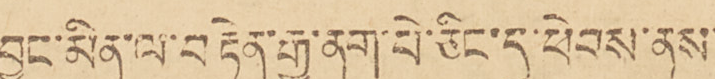བྱུང་མིན་ལ་བརྟེན་རྒྱ་ནག་པེ་ཅིང་དུ་ཕེབས་ནས་
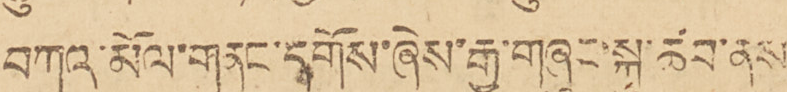བཀའ་མོལ་གནང་དགོས་ཞེས་རྒྱ་གཞུང་སྐུ་ཚབ་ནས་
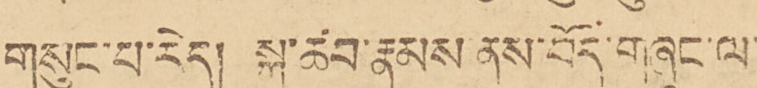གསུང་པ་རེད། སྐུ་ཚབ་རྣམས ནས་བོད་གཞུང་ལ་
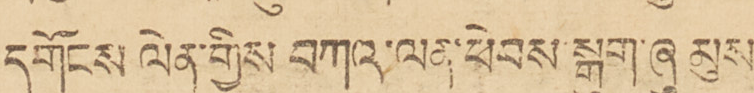དགོངས ལེན་གྱིས བཀའ་ལན་ཕེབས་སྒུག་ཞུ མུས
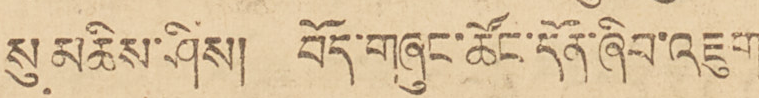སུ མཆིས་ཤིས། བོད་གཞུང་ཚོང་དོན་ཞིབ་འཇུག་
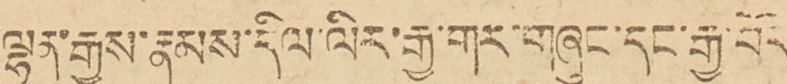ལྷན་རྒྱས་རྣམས་དིལ་ལིར་རྒྱ་གར་གཞུང་དང་རྒྱ་བོད
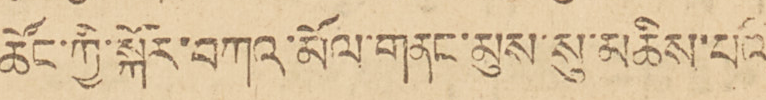ཚོང་གྱི་སྐོར་བཀའ་མོལ་གནང་མུས་སུ་མཆིས་པའི་
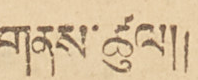གནས་ཚུལ།།
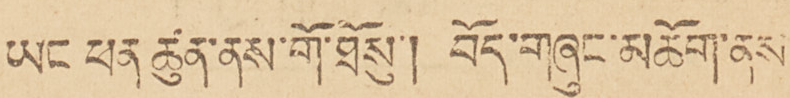ཡང ཕན ཚུན་ནས་གོ་ཐོསུ་། བོད་གཞུང་མཆོག་ནས
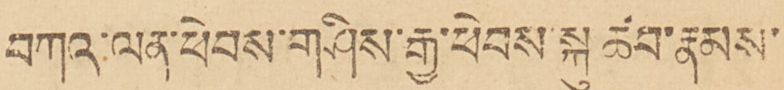བཀའ་ལན་ཕེབས་གཤིས་རྒྱ་ཕེབས་སྐུ ཚབ་རྣམས་
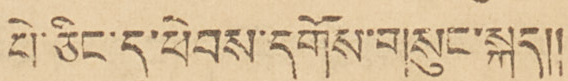པེ་ཅིང་དུ་ཕེབས་དགོས་གསུང་སྐད།།
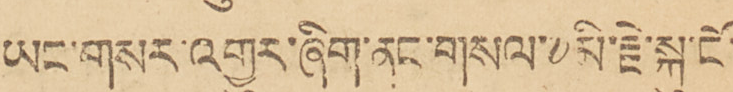ཡང་གསར་འགྱུར་ཞིག་ནང་གསལ་༸མི་རྗེ་སྐུ་ངོ་
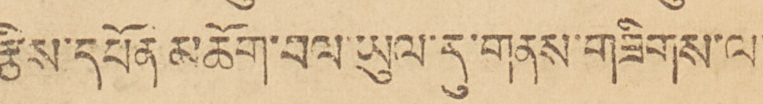རྩིས་དཔོན མཆོག་བལ་ཡུལ་དུ་གནས་གཟིགས་ལ་
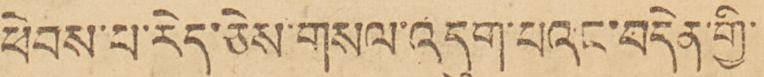ཕེབས་པ་རེད་ཅེས་གསལ་འདུག་པའང་བདེན་གྱི་
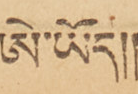ཨེ་ཡོད།།
